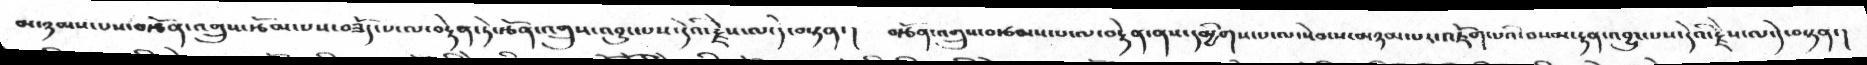མ་ཉམས་པས་བརྩོན་འགྲུས་རྩོམ་པས་བཟོད་པ་ལ་བརྟེན་ཏེ་རྩོན་འགྲུས་འབྱུང་པས་དེའི་རྗེས་ལ་དེ་བསྟན་།    བརྩོན་འགྲུས་བརྩམས་པ་ལ་བརྟེན་ནས་དམྱིགས་པ་ལ་སེམས་མཉམ་པར་འཇོག་པའི་བསམ་རྟན་འབྱུང་པས་དེའི་རྗེས་ལ་དེ་བསྟན་།
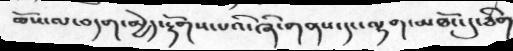ཆོས་ལ་བདག་མྱེད་རྟོགས་པའི་ཞི་གནས་དང་ལྷག་མཐོང་དུ་ཅིག
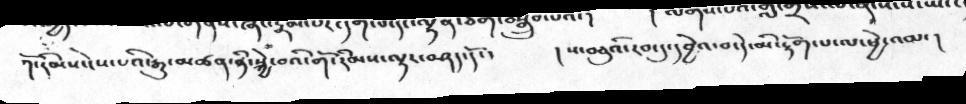ཀོ་རིམས་ངེས་པའི་རྒྱུ་མཚན་ནི་སྐྱེ་བའི་གོ་རིམས་ལྟར་བཤད་དོ་།   ། ས་བཅུའི་རབ་དུ་དབྱེའ་བ་དེ་མི་རྟོག་པ་ལ་ཕྱེ་འམ་།
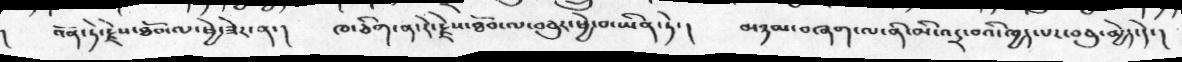།  འོན་ཏེ་རྗེས་ཐོབ་ལ་ཕྱེ་ཟེར་ན་།   ཁ་ཅིག་ན་རེ་རྗེས་ཐོབ་ལ་བཅུར་ཕྱེ་བ་ཡིན་ཏེ་།   མཉམ་བཞག་ལ་ནི་མི་འདྲ་བའི་ཁྱད་པར་བཅུ་མྱེད་དེ་།
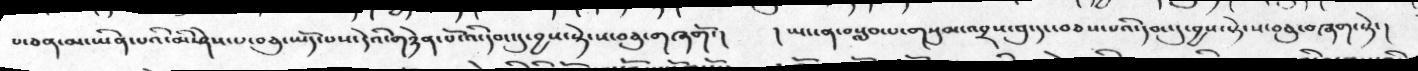པ་ཅན་མ་ཡིན་པའི་མི་ཤེས་པ་བཅུ་ཡོད་པས་དེའི་གཉེན་པོ་འི་དབང་དུ་བྱས་སྟེ་ས་བཅུ་གཞགོ་།  །ཡང་ན་བསླབ་པ་གསུམ་འབྲས་བུ་དང་བཅས་པའི་དབང་དུ་བྱས་སྟེ་ས་བཅུ་བཞག་སྟེ་།
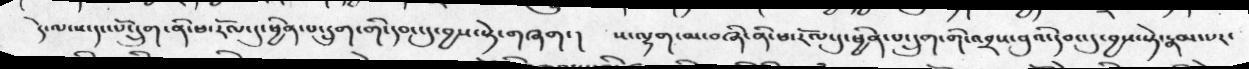དེ་ལ་ས་དང་པོ་དྲུག་ནི་ཕ་རོལ་དུ་ཕྱིན་པ་དྲུག་གི་དབང་དུ་བྱས་སྟེ་གཞག་།  ས་ལྷག་མ་བཞི་ནི་ཕ་རོལ་དུ་ཕྱིན་པ་དྲུག་གི་འབྲས་བུའི་རབ་དུ་བྱས་སྟེ་རྣམ་པར་
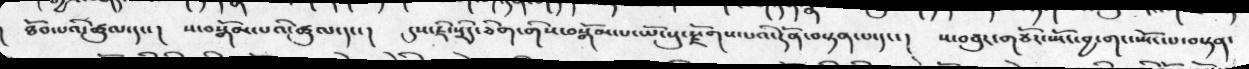ཐོབ་པའི་ཚུལ་དང་།   ས་བསྒོམ་པའི་ཚུལ་དང་།   དུས་ཇི་སྲིད་ཅིག་གིས་བསྒོམ་པ་ཡོངསུ་རྫོགས་པའི་དོན་བསྟན་པ་དང་།  ས་བཅུར་གཙོར་ཡོང་བྱ་གང་སྤོང་པ་བསྟན་
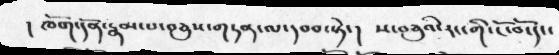། ཁོག་དོན་རྣམ་པ་བཅུས་གཏན་ལ་དབབ་སྟེ་།  ས་བཅུའི་རང་གི་ངོ་བོ་དང་
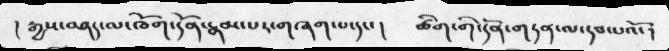། རྒྱས་བཤད་ལ་ཁོག་དོན་རྣམ་པར་གཞག་པ་དང་།  ཚིག་གི་དོན་གཏན་ལ་དབ་པའོ་།
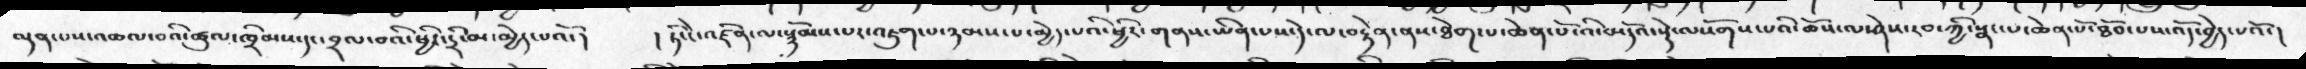ལྡན་པས་འཆལ་བའི་ཚུལ་ཁྲིམས་དང་བྲལ་བའི་ཕྱིར་དྲི་མ་མྱེད་པའོ་།    ། ཏི་ངེ་འཛིན་ལ་སྙོམས་པར་འཇུག་པ་ཉམས་པ་མྱེད་པའི་ཕྱིར་གནས་ཡིན་པས་དེ་ལ་བརྟེན་ནས་ཐེག་པ་ཆེན་པོ་འི་མདོའ་སྡེ་ལསོགས་པའི་ཆོས་ལ་ཤེས་རབ་ཀྱི་སྣང་པ་ཆེན་པོ་ཐོབ་པས་འོད་བྱེད་པའོ་།
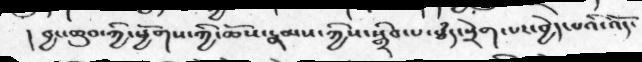། བྱང་ཆུབ་ཀྱི་ཕྱོགས་ཀྱི་ཆོས་རྣམ་ཀྱིས་སྒྲིབ་པ་ཐཾད་སྲེག་པར་བྱེད་པའི་འོད་
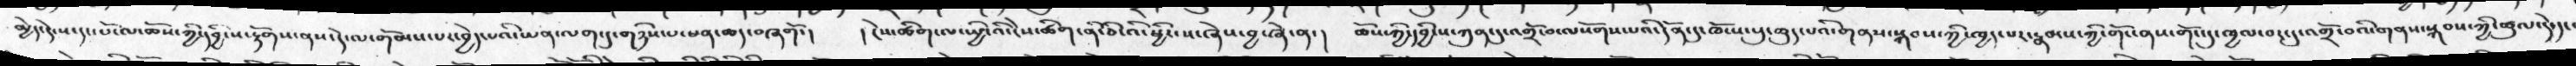མྱེད་དེ་ས་དང་པོ་ལ་ཆོས་ཀྱི་དབྱིངས་རྟོགས་ནས་དེ་ལ་གོམས་པར་བྱེད་པའི་ཡན་ལག་དུ་གཉིས་པ་ཕན་ཆད་བཞགོ་།  ། ངེས་ཚིག་ལ་སྤྱིའི་ངེས་ཚིག་ནི་ཅི་འི་ཕྱིར་ས་ཞེས་བྱ་ཞེ་ན་།  ཆོས་ཀྱི་དབྱིངས་ཀུན་དུ་འགྲོ་བ་ལསོགས་པའི་དོན་དུ་ཁོངས་སུ་ཆུད་པའི་གནས་སྐབས་ཀྱི་ཁྱད་པར་རྣམས་ཀྱི་གོང་ནས་གོང་དུ་ཁྱལ་བར་དུ་འགྲོ་བའི་གནས་སྐབས་ཀྱི་ཚུལ་དེ་དང་
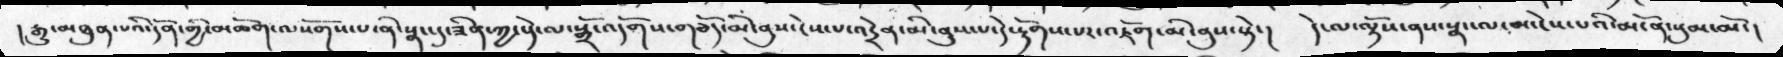། རྒྱུ་མཐུན་པའི་དོན་གྱི་མཆོག་ལསོགས་པ་ནི་སྣང་དུ་ཟིན་ཀྱང་དེ་ལ་སྒྲོ་འདོགས་གཅོད་མི་ནུས་ངེས་པ་འདྲེན་མི་ནུས་པ་དེ་རྟོགས་པར་འཇོག་མི་ནུས་སྟེ་།  དེ་ལ་ལྟོས་ནས་སྣང་ལ་མ་ངེས་པའི་མངོན་སུམ་མོ་།
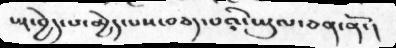པར་བྱེད་པ་མྱེད་པས་བཅད་པའི་ཡུལ་ཅན་ནོ་།
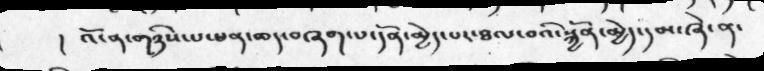། འོ་ན་གཉིས་པ་ཡན་ཆད་བཞག་པ་དོན་མྱེད་པར་ཐལ་བའི་སྐྱོན་མྱེད་དམ་ཞེ་ན་
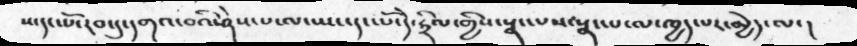ས་དང་པོ་རབ་དུ་དགའ་བའི་ཤེས་པ་ལ་ཡང་དང་པོ་དེ་ཧྲིལ་གྱིས་སྣང་པས་སྣང་པ་ལ་ཁྱད་པར་མྱེད་ལ་།
